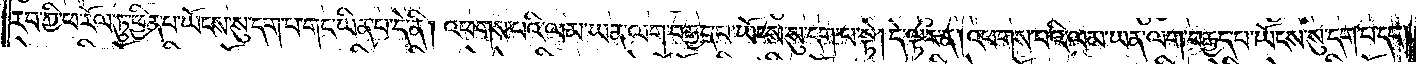རབ་ཀྱི་ཕ་རོལ་ཏུ་ཕྱིན་པ་ཡོངས་སུ་དག་པ་གང་ཡིན་པ་དེ་ནི། འཕགས་པའི་ལམ་ཡན་ལག་བརྒྱད་པ་ཡོངས་སུ་དག་པ་སྟེ། དེ་ལྟར་ན། འཕགས་པའི་ལམ་ཡན་ལག་བརྒྱད་པ་ཡོངས་སུ་དག་པ་དང༌།
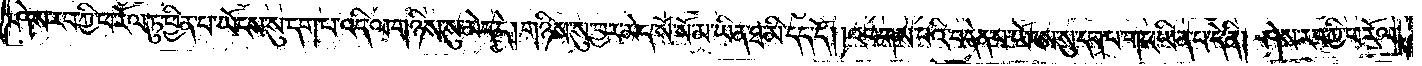ཤེས་རབ་ཀྱི་ཕ་རོལ་ཏུ་ཕྱིན་པ་ཡོངས་སུ་དག་པ་འདི་ལ་གཉིས་སུ་མེད་དེ། གཉིས་སུ་བྱར་མེད་སོ་སོ་མ་ཡིན་ཐ་མི་དད་དོ། །འཕགས་པའི་བདེན་པ་ཡོངས་སུ་དག་པ་གང་ཡིན་པ་དེ་ནི། ཤེས་རབ་ཀྱི་ཕ་རོལ་
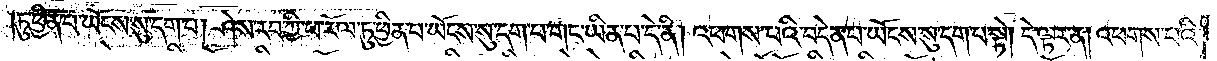ཏུ་ཕྱིན་པ་ཡོངས་སུ་དག་པ། ཤེས་རབ་ཀྱི་ཕ་རོལ་ཏུ་ཕྱིན་པ་ཡོངས་སུ་དག་པ་གང་ཡིན་པ་དེ་ནི། འཕགས་པའི་བདེན་པ་ཡོངས་སུ་དག་པ་སྟེ། དེ་ལྟར་ན། འཕགས་པའི་
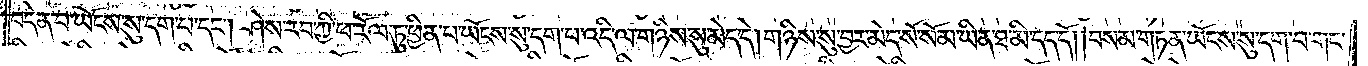བདེན་པ་ཡོངས་སུ་དག་པ་དང༌། ཤེས་རབ་ཀྱི་ཕ་རོལ་ཏུ་ཕྱིན་པ་ཡོངས་སུ་དག་པ་འདི་ལ་གཉིས་སུ་མེད་དེ། གཉིས་སུ་བྱར་མེད་སོ་སོ་མ་ཡིན་ཐ་མི་དད་དོ། །བསམ་གཏན་ཡོངས་སུ་དག་པ་གང་
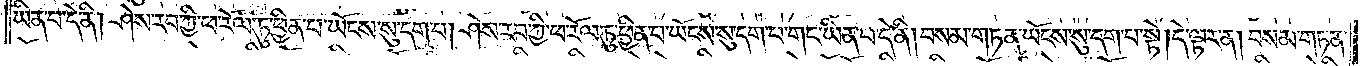ཡིན་པ་དེ་ནི། ཤེས་རབ་ཀྱི་ཕ་རོལ་ཏུ་ཕྱིན་པ་ཡོངས་སུ་དག་པ། ཤེས་རབ་ཀྱི་ཕ་རོལ་ཏུ་ཕྱིན་པ་ཡོངས་སུ་དག་པ་གང་ཡིན་པ་དེ་ནི། བསམ་གཏན་ཡོངས་སུ་དག་པ་སྟེ། དེ་ལྟར་ན། བསམ་གཏན་
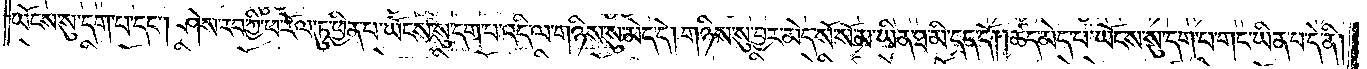ཡོངས་སུ་དག་པ་དང༌། ཤེས་རབ་ཀྱི་ཕ་རོལ་ཏུ་ཕྱིན་པ་ཡོངས་སུ་དག་པ་འདི་ལ་གཉིས་སུ་མེད་དེ། གཉིས་སུ་བྱར་མེད་སོ་སོ་མ་ཡིན་ཐ་མི་དད་དོ། །ཚད་མེད་པ་ཡོངས་སུ་དག་པ་གང་ཡིན་པ་དེ་ནི།
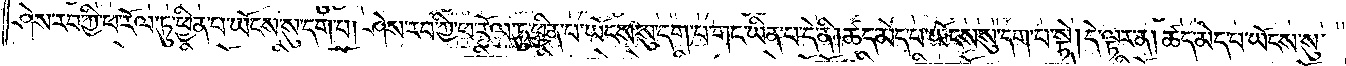ཤེས་རབ་ཀྱི་ཕ་རོལ་ཏུ་ཕྱིན་པ་ཡོངས་སུ་དག་པ། ཤེས་རབ་ཀྱི་ཕ་རོལ་ཏུ་ཕྱིན་པ་ཡོངས་སུ་དག་པ་གང་ཡིན་པ་དེ་ནི། ཚད་མེད་པ་ཡོངས་སུ་དག་པ་སྟེ། དེ་ལྟར་ན། ཚད་མེད་པ་ཡོངས་སུ་
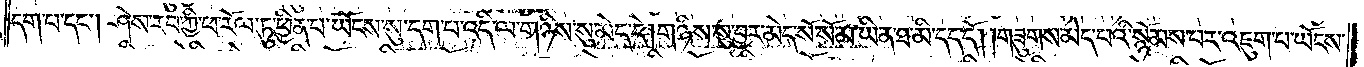དག་པ་དང༌། ཤེས་རབ་ཀྱི་ཕ་རོལ་ཏུ་ཕྱིན་པ་ཡོངས་སུ་དག་པ་འདི་ལ་གཉིས་སུ་མེད་དེ། གཉིས་སུ་བྱར་མེད་སོ་སོ་མ་ཡིན་ཐ་མི་དད་དོ། །གཟུགས་མེད་པའི་སྙོམས་པར་འཇུག་པ་ཡོངས་
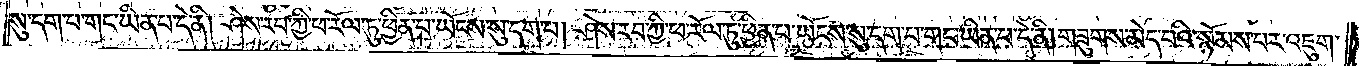སུ་དག་པ་གང་ཡིན་པ་དེ་ནི། ཤེས་རབ་ཀྱི་ཕ་རོལ་ཏུ་ཕྱིན་པ་ཡོངས་སུ་དག་པ། ཤེས་རབ་ཀྱི་ཕ་རོལ་ཏུ་ཕྱིན་པ་ཡོངས་སུ་དག་པ་གང་ཡིན་པ་དེ་ནི། གཟུགས་མེད་པའི་སྙོམས་པར་འཇུག་
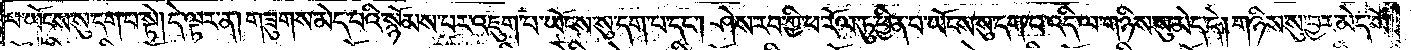པ་ཡོངས་སུ་དག་པ་སྟེ། དེ་ལྟར་ན། གཟུགས་མེད་པའི་སྙོམས་པར་འཇུག་པ་ཡོངས་སུ་དག་པ་དང༌། ཤེས་རབ་ཀྱི་ཕ་རོལ་ཏུ་ཕྱིན་པ་ཡོངས་སུ་དག་པ་འདི་ལ་གཉིས་སུ་མེད་དེ། གཉིས་སུ་བྱར་མེད་སོ་
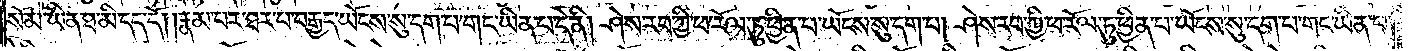སོ་མ་ཡིན་ཐ་མི་དད་དོ། །རྣམ་པར་ཐར་པ་བརྒྱད་ཡོངས་སུ་དག་པ་གང་ཡིན་པ་དེ་ནི། ཤེས་རབ་ཀྱི་ཕ་རོལ་ཏུ་ཕྱིན་པ་ཡོངས་སུ་དག་པ། ཤེས་རབ་ཀྱི་ཕ་རོལ་ཏུ་ཕྱིན་པ་ཡོངས་སུ་དག་པ་གང་ཡིན་པ་
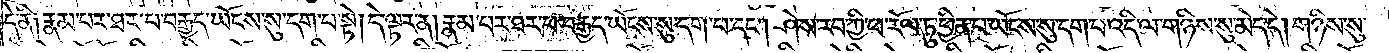དེ་ནི༑ རྣམ་པར་ཐར་པ་བརྒྱད་ཡོངས་སུ་དག་པ་སྟེ། དེ་ལྟར་ན། རྣམ་པར་ཐར་པ་བརྒྱད་ཡོངས་སུ་དག་པ་དང༌། ཤེས་རབ་ཀྱི་ཕ་རོལ་ཏུ་ཕྱིན་པ་ཡོངས་སུ་དག་པ་འདི་ལ་གཉིས་སུ་མེད་དེ། གཉིས་སུ་
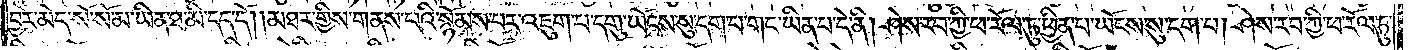བྱར་མེད་སོ་སོ་མ་ཡིན་ཐ་མི་དད་དོ། །མཐར་གྱིས་གནས་པའི་སྙོམས་པར་འཇུག་པ་དགུ་ཡོངས་སུ་དག་པ་གང་ཡིན་པ་དེ་ནི། ཤེས་རབ་ཀྱི་ཕ་རོལ་ཏུ་ཕྱིན་པ་ཡོངས་སུ་དག་པ། ཤེས་རབ་ཀྱི་ཕ་རོལ་ཏུ་
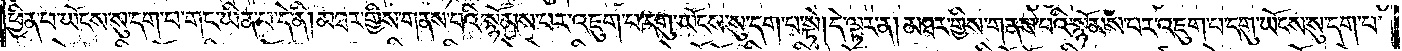ཕྱིན་པ་ཡོངས་སུ་དག་པ་གང་ཡིན་པ་དེ་ནི། མཐར་གྱིས་གནས་པའི་སྙོམས་པར་འཇུག་པ་དགུ་ཡོངས་སུ་དག་པ་སྟེ། དེ་ལྟར་ན། མཐར་གྱིས་གནས་པའི་སྙོམས་པར་འཇུག་པ་དགུ་ཡོངས་སུ་དག་པ་
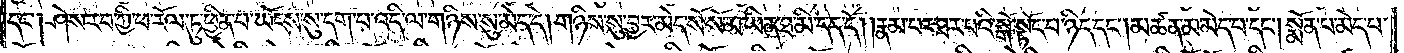དང༌། ཤེས་རབ་ཀྱི་ཕ་རོལ་ཏུ་ཕྱིན་པ་ཡོངས་སུ་དག་པ་འདི་ལ་གཉིས་སུ་མེད་དེ། གཉིས་སུ་བྱར་མེད་སོ་སོ་མ་ཡིན་ཐ་མི་དད་དོ། །རྣམ་པར་ཐར་པའི་སྒོ་སྟོང་པ་ཉིད་དང༌། མཚན་མ་མེད་པ་དང༌། སྨོན་པ་མེད་པ་
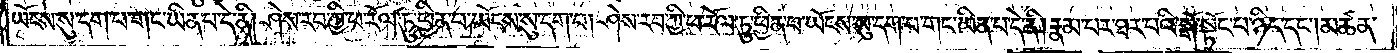ཡོངས་སུ་དག་པ་གང་ཡིན་པ་དེ་ནི། ཤེས་རབ་ཀྱི་ཕ་རོལ་ཏུ་ཕྱིན་པ་ཡོངས་སུ་དག་པ། ཤེས་རབ་ཀྱི་ཕ་རོལ་ཏུ་ཕྱིན་པ་ཡོངས་སུ་དག་པ་གང་ཡིན་པ་དེ་ནི། རྣམ་པར་ཐར་པའི་སྒོ་སྟོང་པ་ཉིད་དང༌། མཚན་
